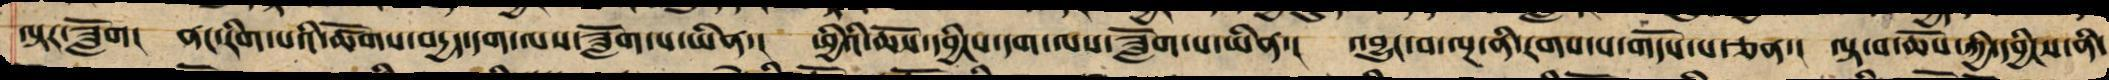ལྟར་ཟློག། ནང་རིག་པའི་ཚོགས་བདྱད་དག་ལས་ཟློག་པ་ཡིན་། ཕྱིའི་ཆོས་དབྱིངས་དག་ལས་ཟློག་པ་ཡིན་། འབྱུང་བ་ལྔ་ནི་རགས་པ་གདོས་པ་ཅན་། ལྟ་བ་ཆོས་ཀྱི་དབྱིངས་ནི་
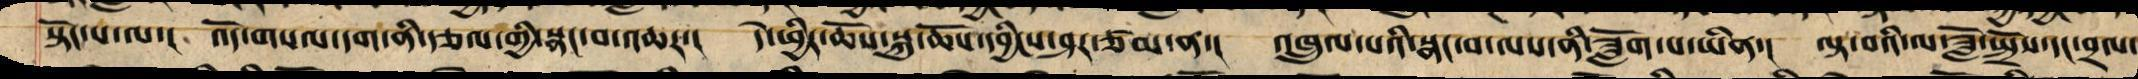སྟོང་པ་ལ་། འོད་གསལ་དག་ནི་རྩལ་གྱི་སྣང་བ་འཆར་། དེ་ཕྱིར་ཆོས་སྐུ་ཆོས་དབྱིངས་ཤར་ཙམ་ན་། འཁྲུལ་པའི་སྣང་བ་ལས་ནི་ཟློག་པ་ཡིན་། ལྟ་བའི་ལ་ཟློ་སྤྲོས་དང་བྲལ་
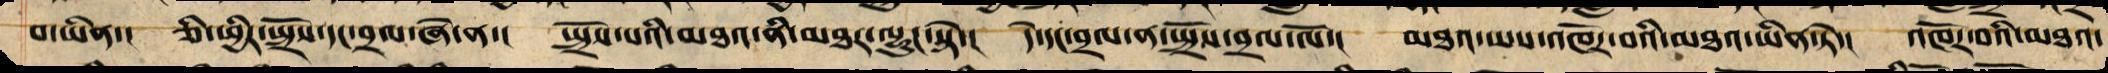བ་ཡིན་། ཅི་ཕྱིར་སྤྲོས་དང་བྲལ་ཞེ་ན་། སྤྲོས་པའི་མཐའ་ནི་མཐར་ལྷུང་སྟེ་། དེ་དང་བྲལ་ན་སྤྲོས་བྲལ་ལོ་། མཐའ་ཡས་འཁོར་བའི་མཐའ་ཡིན་ཏེ་། འཁོར་བའི་མཐའ་
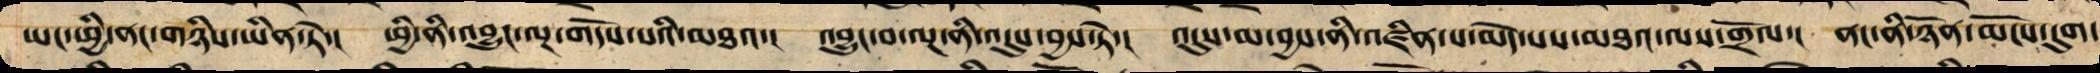ཡང་ཕྱི་ནང་གཉིས་ཡིན་ཏེ་། ཕྱི་ནི་འབྱུང་ལྔ་གདོས་པའི་མཐའ་། འབྱུང་བ་ལྔ་ནི་འདུས་བྱས་ཏེ་། འདུས་མ་བྱས་ནི་འཛིན་པ་མེད་པས་མཐའ་ལས་གྲོལ་། ནང་ནི་ཉོན་མོངས་དུག་
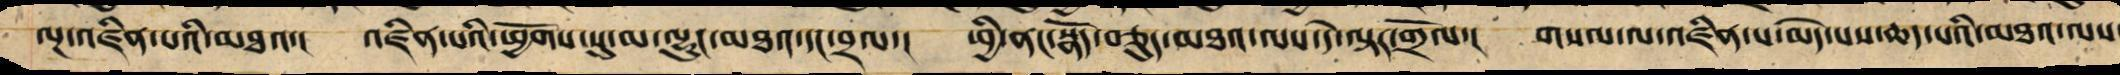ལྔ་འཛིན་པའི་མཐའ་། འཛིན་པའི་ཕྱོགས་སུ་མ་ལྷུང་མཐའ་དང་བྲལ་། ཕྱི་ནང་སྣོད་བཅུད་མཐའ་ལས་དེ་ལྟར་གྲོལ་། གསལ་ལ་འཛིན་པ་མེད་པས་ཆད་པའི་མཐའ་ལས་
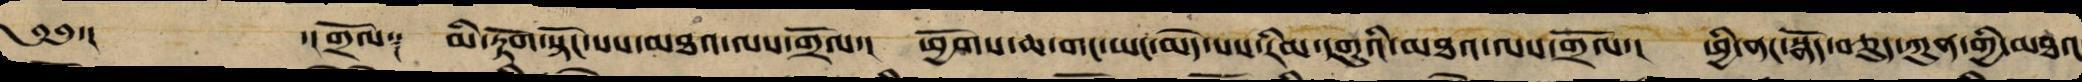༄༅་། ་། གྲོལ༑ མི་རྟོག་སྟོང་པས་མཐའ་ལས་གྲོལ་། ཕྱོགས་ཆ་གང་ཡང་མེད་པས་རིམ་དགུའི་མཐའ་ལས་གྲོལ་། ཕྱི་ནང་སྣོད་བཅུད་ཀུན་གྱི་མཐའ
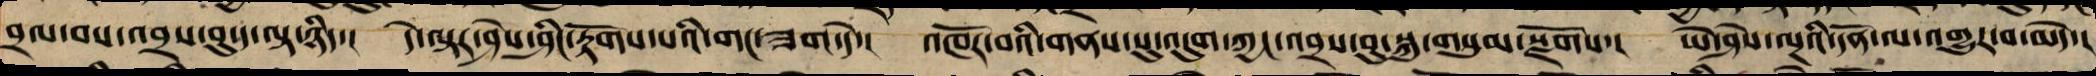བྲལ་བས་འབྲས་བུ་ད་ལྟ་ཉིད་། དེ་ལྟར་ཤེས་ཤིང་རྟོགས་པའི་གང་ཟག་དེ་། འཁོར་བའི་གནས་སུ་འདུག་ཀྱང་འབྲས་བུ་སྐུ་གསུམ་སྫོགས་། ཡེ་ཤེས་ལྔའི་དོན་ལ་འགྱུར་བ་མེད་།
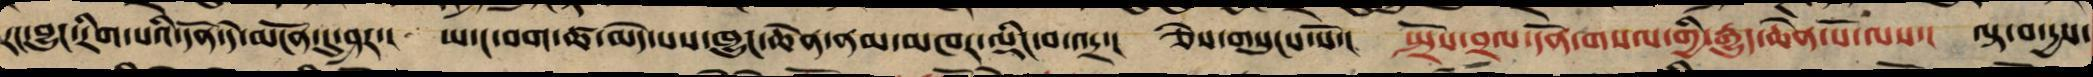རང་བྱུང་རིག་པའི་དོན་དེ་མངོན་དུ་ཤར་། ཡ་ང་བག་ཚ་མེད་པས་ཁྱུང་ཆེན་ནམ་མཁར་ལྡིང་བ་འདྲ་། ཅེས་གསུངས་སོ་། སྤྲོས་བྲལ་དོན་གསལ་གྱི་རྒྱུད་ཆེན་པོ་ལས་། ལྟ་བ་དྱས་
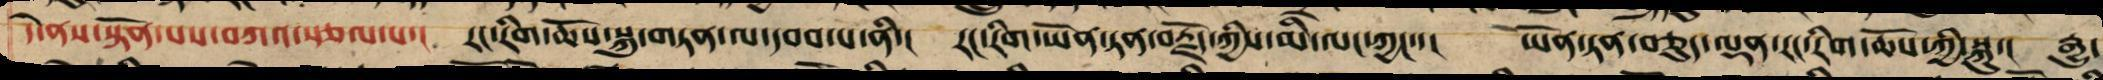དེ་ནས་སྟོན་པས་བཀའ་སྩལ་པ་། རང་རིག་ཆོས་སྐུ་གཏན་ལ་དབབ་པ་ནི་། རང་རིག་ཡོན་ཏན་བརྗོད་ཀྱིས་མི་ལང་ཀྱང་་། ཡོན་ཏན་བཅུ་ལྡན་རང་རིག་ཆོས་ཀྱི་སྐུ་། རྒྱུ་
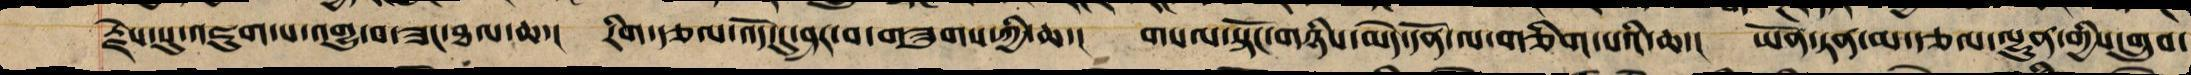རྗེས་སུ་འཇུག་པ་འགྱུ་བ་ཟང་ཐལ་ཆ་། རིག་རྩལ་འོད་དུ་ཤར་བ་གཟུགས་ཀྱི་ཆ་། གསལ་སྟོང་གཉིས་མེད་དོན་ལ་གཅིག་པའི་ཆ་། ཡོན་ཏན་མ་རྩལ་ལྷུན་གྱིས་གྲུབ་
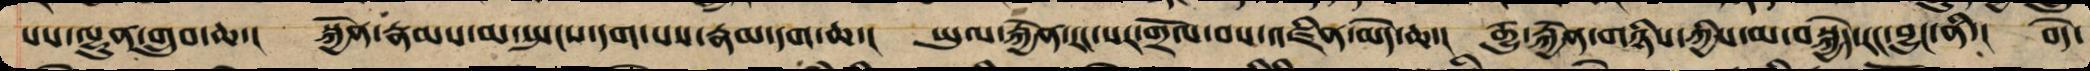པས་ལྷུན་གྲུབ་ཆ་། སྐྱོན་རྣམས་མ་སྤངས་དག་པས་རྣམ་དག་ཆ་། ཡུལ་རྐྱེན་རང་སར་གྲོལ་བས་འཛིན་མེད་ཆ་། རྒྱུ་རྐྱེན་གཉིས་ཀྱིས་མ་བསྐྱེད་རང་བྱུང་ནི་། བདེ་
